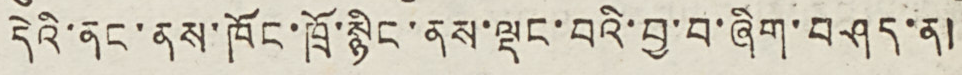དེའི་ནང་ནས་ཁོང་ཁྲོ་སྙིང་ནས་ལྡང་བའི་བྱ་བ་ཞིག་བཤད་ན།
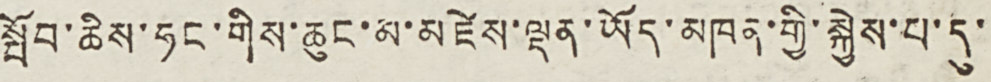སྤོབ་ཆིས་ཧང་གིས་ཆུང་མ་མཛེས་ལྡན་ཡོད་མཁན་གྱི་སྐྱེས་པ་དུ་
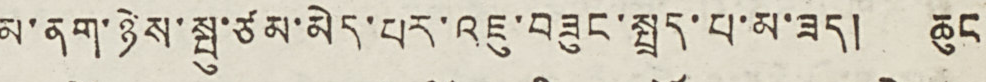མ་ནག་ཉེས་སྤུ་ཙམ་མེད་པར་འཇུ་བཟུང་སྤྲད་པ་མ་ཟད། ཆུང
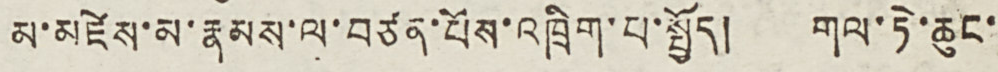མ་མཛེས་མ་རྣམས་ལ་བཙན་པོས་འཁྲིག་པ་སྤྱོད། གལ་ཏེ་ཆུང་
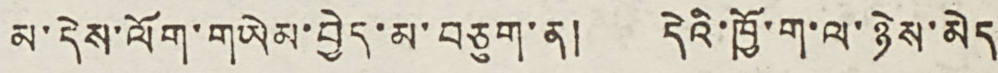མ་དེས་ལོག་གཡེམ་བྱེད་མ་བཅུག་ན། དེའི་ཁྱོ་ག་ལ་ཉེས་མེད
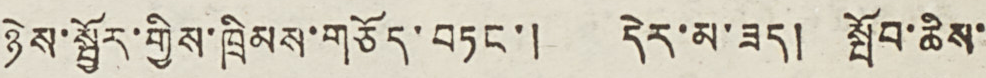ཉེས་སྤྱོར་གྱིས་ཁྲིམས་གཅོད་བཏང་། དེར་མ་ཟད། སྤོབ་ཆིས་
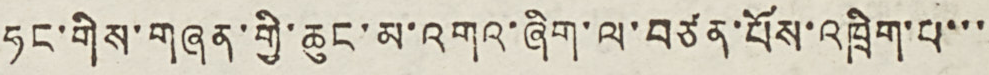ཧང་གིས་གཞན་གྱི་ཆུང་མ་འགའ་ཞིག་ལ་བཙན་པོས་འཁྲིག་པ་་་
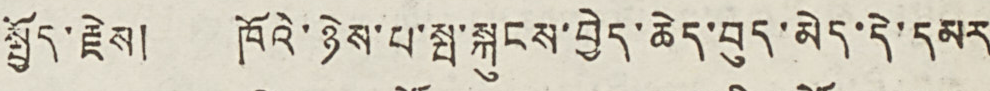སྤྱོད་རྗེས། ཁོའི་ཉེས་པ་སྤ་སྐུངས་བྱེད་ཆེད་བུད་མེད་དེ་དམར
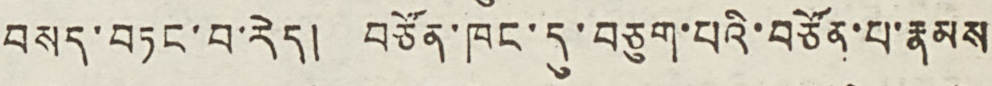བསད་བཏང་བ་རེད། བཙོན་ཁང་དུ་བཅུག་པའི་བཙོན་པ་རྣམས
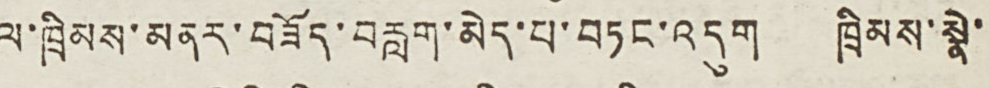ལ་ཁྲིམས་མནར་བཟོད་བརླག་མེད་པ་བཏང་འདུག ཁྲིམས་སྣེ་
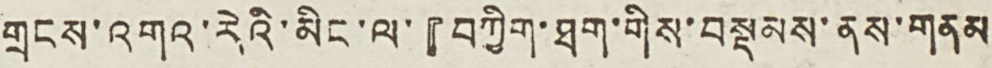གྲངས་འགའ་རེའི་མིང་ལ་『བཀྱིག་ཐག་གིས་བསྡམས་ནས་གནམ
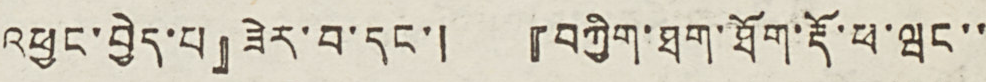འཕྱང་བྱེད་པ』ཟེར་བ་དང་། 『བཀྱིག་ཐག་ཐོག་རྡོ་ཕ་ཝང་་
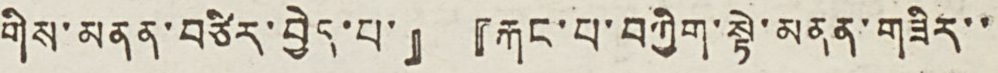གིས་མནན་བཙིར་བྱེད་པ་』『རྐང་པ་བཀྱིག་སྟེ་མནན་གཟིར་་
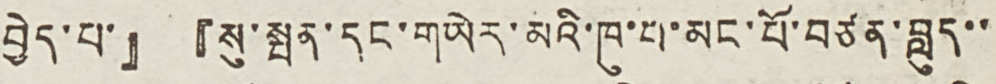བྱེད་པ་』『སུ་སྤན་དང་གཡེར་མའི་ཁུ་པ་མང་པོ་བཙན་བླུད་་
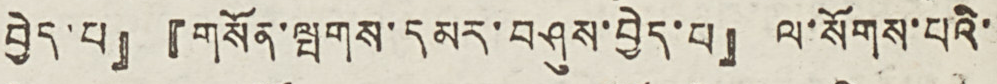བྱེད་པ』『གསོན་ལྤགས་དམར་བཤུས་བྱེད་པ』ལ་སོགས་པའི་
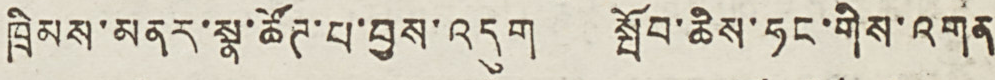ཁྲིམས་མནར་སྣ་ཚོཊ་པ་བྱས་འདུག སྤོབ་ཆིས་ཧང་གིས་འགན
